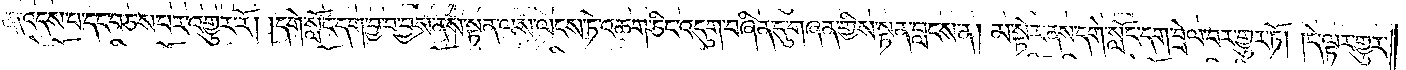ན༑ འདས་པ་དང་བཅས་པར་འགྱུར་རོ། །དགེ་སློང་དག་བྱ་བ་བྱས་ནས་སྟན་ལས་ལངས་ཏེ་འཆག་ཅིང་འདུག་བཞིན་དུ་གཞན་གྱིས་སྟན་བླངས་ན། མ་སྟེར་ནས་དགེ་སློང་དག་བྲེལ་བར་གྱུར་ཏོ། །དེ་ལྟར་གྱུར་
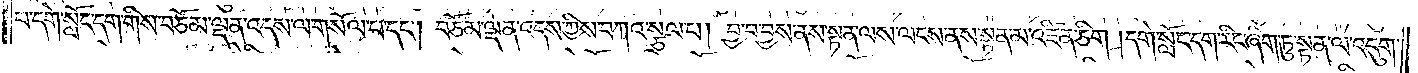པ་དགེ་སློང་དག་གིས་བཅོམ་ལྡན་འདས་ལ་གསོལ་པ་དང༌། བཅོམ་ལྡན་འདས་ཀྱིས་བཀའ་སྩལ་པ། བྱ་བ་བྱས་ནས་སྟན་ལས་ལངས་ནས་སྟན་མ་འཛིན་ཅིག །དགེ་སློང་དག་རིང་ཞིག་ཏུ་སྟན་ལ་འདུག་
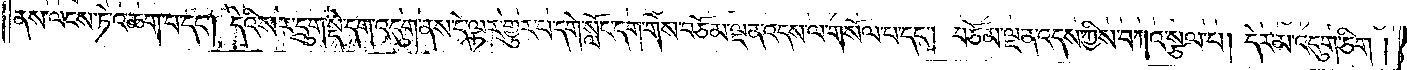ནས་ལངས་ཏེ་འཆག་པ་དང༌། དེའི་སར་དྲུག་སྡེ་དག་འདུག་ནས་དེ་ལྟར་གྱུར་པ་དགེ་སློང་དག་གིས་བཅོམ་ལྡན་འདས་ལ་གསོལ་པ་དང༌། བཅོམ་ལྡན་འདས་ཀྱིས་བཀའ་སྩལ་པ། དེར་མ་འདུག་ཅིག །
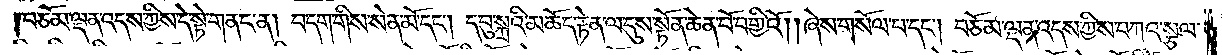བཅོམ་ལྡན་འདས་ཀྱིས་དེ་སྟེ་གནང་ན། བདག་གིས་སེན་མོ་དང༌། དབུ་སྐྲའི་མཆོད་རྟེན་ལ་དུས་སྟོན་ཆེན་པོ་བགྱིའོ། །ཞེས་གསོལ་པ་དང༌། བཅོམ་ལྡན་འདས་ཀྱིས་བཀའ་སྩལ་
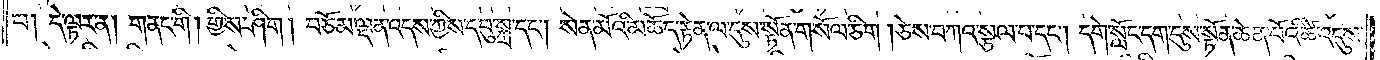པ། དེ་ལྟར་ན། གནང་གི། གྱིས་ཤིག །བཅོམ་ལྡན་འདས་ཀྱིས་དབུ་སྐྲ་དང༌། སེན་མོའི་མཆོད་རྟེན་ལ་དུས་སྟོན་གསོལ་ཅིག །ཅེས་བཀའ་སྩལ་པ་དང༌། དགེ་སློང་དག་དུས་སྟོན་ཆེན་པོའི་ཚེ་འདུས་
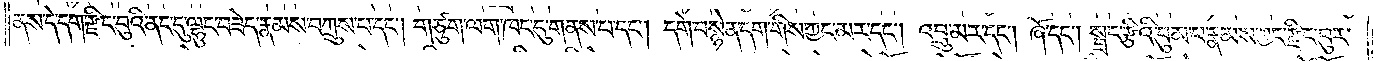ནས་དེ་དག་རྫིང་བུའི་ནང་དུ་ལྷུང་བཟེད་རྣམས་བཀྲུས་པ་དང༌། གཙུག་ལག་ཁང་དུ་གནས་པ་དང༌། དགེ་བསྙེན་དག་གིས་ཀྱང་མར་དང༌། འབྲུ་མར་དང༌། ཞོ་དང༌། སྦྲང་རྩིའི་བུམ་པ་རྣམས་ཀྱང་རྫིང་བུར་
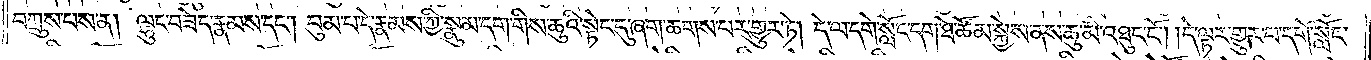བཀྲུས་པས་ན། ལྷུང་བཟེད་རྣམས་དང༌། བུམ་པ་དེ་རྣམས་ཀྱི་སྣུམ་དག་གིས་ཆུའི་སྟེང་དུ་ཞག་ཆགས་པར་གྱུར་ཏེ། དེ་ལ་དགེ་སློང་དག་ཐེ་ཚོམ་སྐྱེས་ནས་ཆུ་མི་འཐུང་ངོ༌། །དེ་ལྟར་གྱུར་པ་དགེ་སློང་
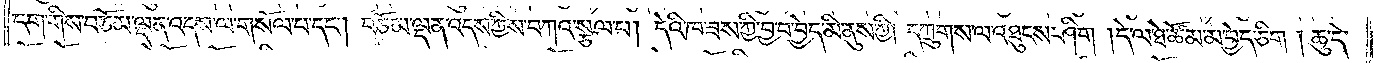དག་གིས་བཅོམ་ལྡན་འདས་ལ་གསོལ་པ་དང༌། བཅོམ་ལྡན་འདས་ཀྱིས་བཀའ་སྩལ་པ། དེའི་ཁ་ཟས་ཀྱི་བྱ་བ་བྱེད་མི་ནུས་ཀྱི། དཀྲུགས་ལ་འཐུངས་ཤིག །དེ་ལ་ཐེ་ཚོམ་མ་བྱེད་ཅིག །ཆུ་དེ་
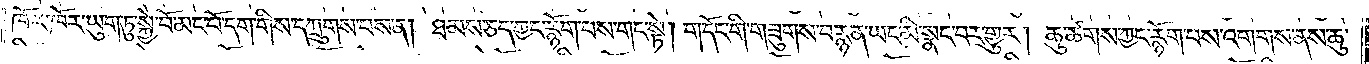ཁོ་ར་ཁོར་ཡུག་ཏུ་སྐྱེ་བོ་མང་པོ་དག་གིས་དཀྲུགས་པས་ན། ཐམས་ཅད་ཀྱང་རྙོག་པས་གང་སྟེ། གདོང་གི་གཟུགས་བརྙན་ཡང་མི་སྣང་བར་གྱུར། ཆུ་ཚགས་ཀྱང་རྙོག་པས་འགགས་ནས་ཆུ་
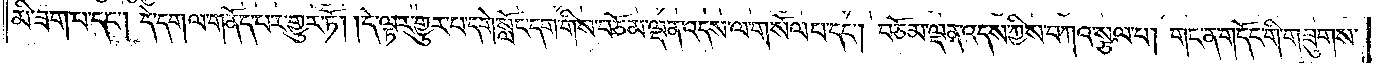མི་ཟག་པ་དང༌། དེ་དག་ལ་གནོད་པར་གྱུར་ཏོ། །དེ་ལྟར་གྱུར་པ་དགེ་སློང་དག་གིས་བཅོམ་ལྡན་འདས་ལ་གསོལ་པ་དང༌། བཅོམ་ལྡན་འདས་ཀྱིས་བཀའ་སྩལ་པ། གང་ན་གདོང་གི་གཟུགས་
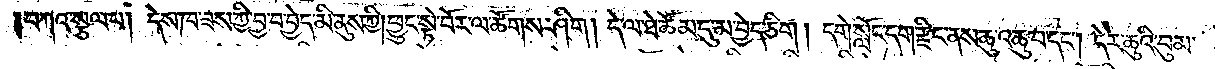བཀའ་སྩལ་པ། དེས་ཁ་ཟས་ཀྱི་བྱ་བ་བྱེད་མི་ནུས་ཀྱི། ཕྱུང་སྟེ་བོར་ལ་ཚོགས་ཤིག །དེ་ལ་ཐེ་ཚོམ་དུ་མ་བྱེད་ཅིག །དགེ་སློང་དག་རྫིང་ནས་ཆུ་འཆུ་བ་དང༌། དེར་ཆུའི་བུམ་
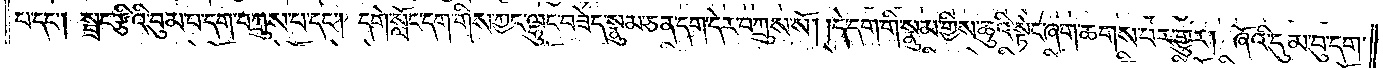པ་དང༌། སྦྲང་རྩིའི་བུམ་པ་དག་བཀྲུས་པ་དང༌། དགེ་སློང་དག་གིས་ཀྱང་ལྷུང་བཟེད་སྣུམ་ཅན་དག་དེར་བཀྲུས་སོ། །དེ་དག་གིས་སྣུམ་གྱིས་ཆུའི་སྟེང་ཞག་ཆགས་པར་གྱུར། ཞོའི་དུམ་བུ་དག་
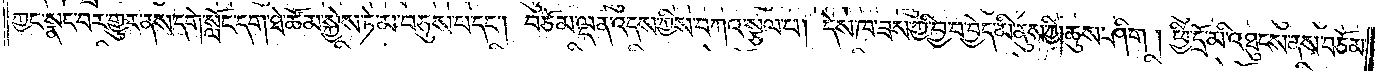ཀྱང་སྣང་བར་གྱུར་ནས་དགེ་སློང་དག་ཐེ་ཚོམ་སྐྱེས་ཏེ་མ་བཅུས་པ་དང༌། བཅོམ་ལྡན་འདས་ཀྱིས་བཀའ་སྩལ་པ། དེས་ཁ་ཟས་ཀྱི་བྱ་བ་བྱེད་མི་ནུས་ཀྱི། ཆུས་ཤིག །ཕྱི་དྲོ་མི་འཐུངས་ནས་བཅོམ་
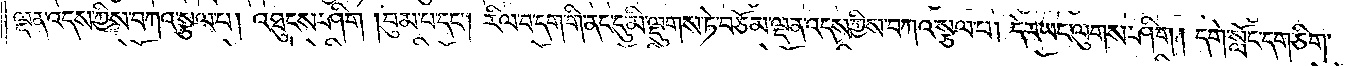ལྡན་འདས་ཀྱིས་བཀའ་སྩལ་པ། འཐུངས་ཤིག །བུམ་པ་དང༌། རིལ་བ་དག་གི་ནང་དུ་མི་ལྡུགས་ཏེ་བཅོམ་ལྡན་འདས་ཀྱིས་བཀའ་སྩལ་པ། དེར་ཡང་ལུགས་ཤིག །དགེ་སློང་དག་ཅིག་
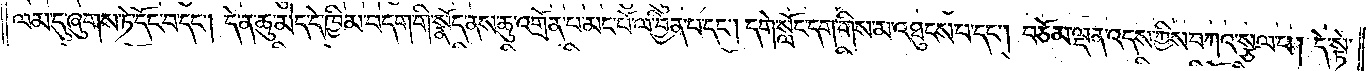ལམ་དུ་ཞུགས་ཏེ་དོང་བ་དང༌། དེ་ན་ཆུ་མེད་དེ་ཁྱིམ་བདག་གི་སྣོད་ནས་ཆུ་འགྲོན་པ་མང་པོ་ལ་བྱིན་པ་དང༌། དགེ་སློང་དག་གིས་མ་འཐུངས་པ་དང༌། བཅོམ་ལྡན་འདས་ཀྱིས་བཀའ་སྩལ་པ། དེ་སྟེ་
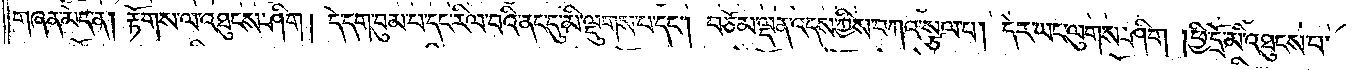གཞན་མེད་ན། རྟོགས་ལ་འཐུངས་ཤིག །དེ་དག་བུམ་པ་དང་རིལ་བའི་ནང་དུ་མི་ལྡུགས་པ་དང༌། བཅོམ་ལྡན་འདས་ཀྱིས་བཀའ་སྩལ་པ། དེར་ཡང་ལུགས་ཤིག །ཕྱི་དྲོ་མི་འཐུངས་པ་
